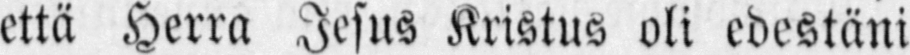että Herra Jesus Kristus oli edestäni
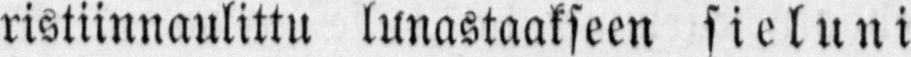ristiinnaulittu lunastaakseen sieluni
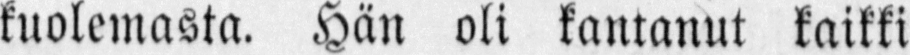kuolemasta. Hän oli kantanut kaikki
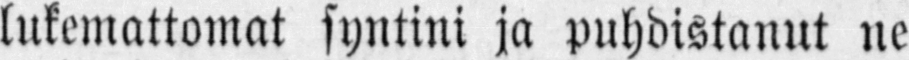lukemattomat syntini ja puhdistanut ne
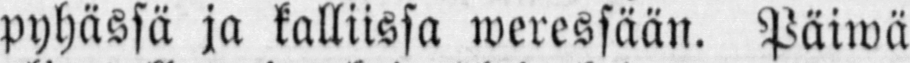pyhässä ja kalliissa weressään. Päiwä
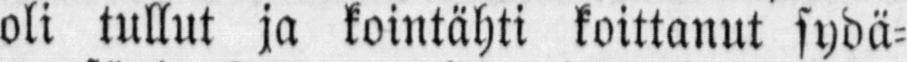oli tullut ja kointähti koittanut sydä-
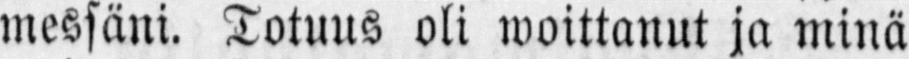messäni. Totuus oli woittanut ja minä
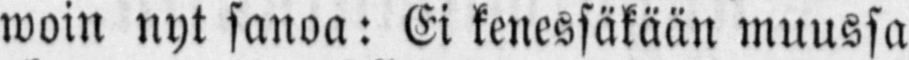woin nyt sanoa: Ei kenessäkään muussa
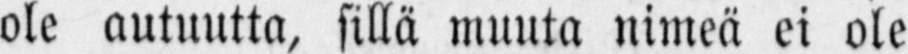ole autuutta, sillä muuta nimeä ei ole
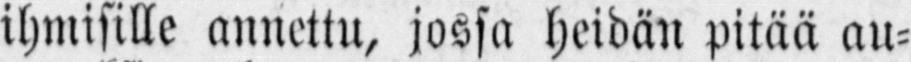ihmisille annettu, jossa heidän pitää au-
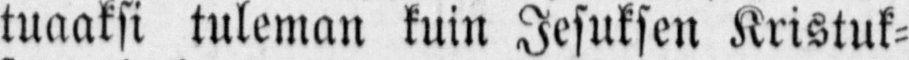tuaaksi tuleman kuin Jesuksen Kristuk-
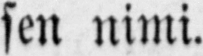sen nimi.
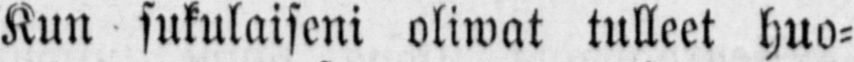Kun sukulaiseni oliwat tulleet huo-
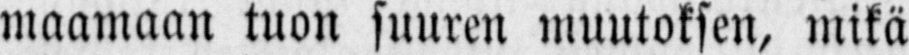maamaan tuon suuren muutoksen, mikä
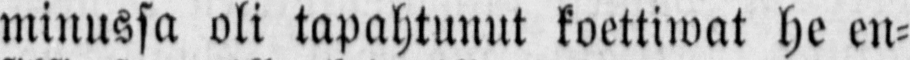minussa oli tapahtunut koettiwat he en-
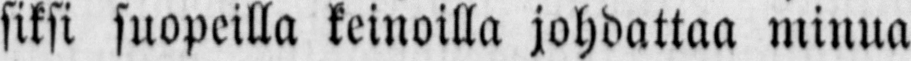siksi suopeilla keinoilla johdattaa minua
